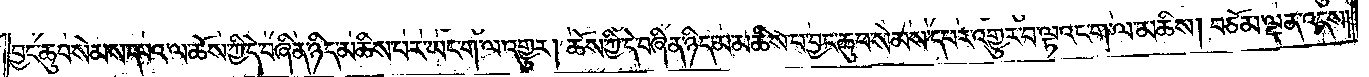བྱང་ཆུབ་སེམས་དཔའ་ལ་ཆོས་ཀྱི་དེ་བཞིན་ཉིད་མཆིས་པར་ཡང་ག་ལ་འགྱུར། ཆོས་ཀྱི་དེ་བཞིན་ཉིད་མ་མཆིས་པ་བྱང་ཆུབ་སེམས་དཔར་འགྱུར་བ་ལྟའང་ག་ལ་མཆིས། བཅོམ་ལྡན་འདས།
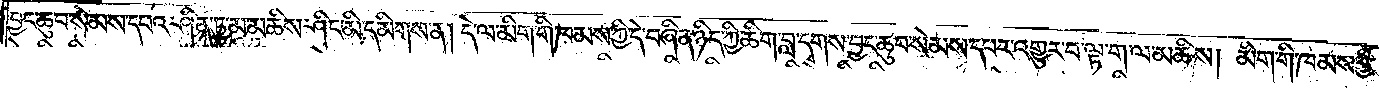བྱང་ཆུབ་སེམས་དཔའ་ཤིན་ཏུ་མ་མཆིས་ཤིང་མི་དམིགས་ན། དེ་ལ་མིག་གི་ཁམས་ཀྱི་དེ་བཞིན་ཉིད་ཀྱི་ཚིག་བླ་དྭགས་བྱང་ཆུབ་སེམས་དཔར་འགྱུར་བ་ལྟ་ག་ལ་མཆིས། མིག་གི་ཁམས་ཀྱི་
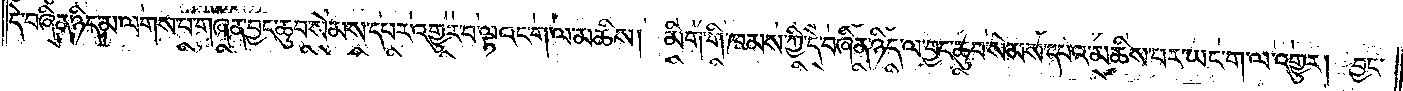དེ་བཞིན་ཉིད་མ་ལགས་པ་གཞན་བྱང་ཆུབ་སེམས་དཔར་འགྱུར་བ་ལྟའང་ག་ལ་མཆིས། མིག་གི་ཁམས་ཀྱི་དེ་བཞིན་ཉིད་ལ་བྱང་ཆུབ་སེམས་དཔའ་མཆིས་པར་ཡང་ག་ལ་འགྱུར། བྱང་
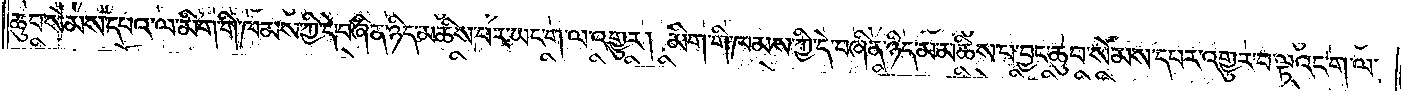ཆུབ་སེམས་དཔའ་ལ་མིག་གི་ཁམས་ཀྱི་དེ་བཞིན་ཉིད་མཆིས་པར་ཡང་ག་ལ་འགྱུར། མིག་གི་ཁམས་ཀྱི་དེ་བཞིན་ཉིད་མ་མཆིས་པ་བྱང་ཆུབ་སེམས་དཔར་འགྱུར་བ་ལྟའང་ག་ལ་
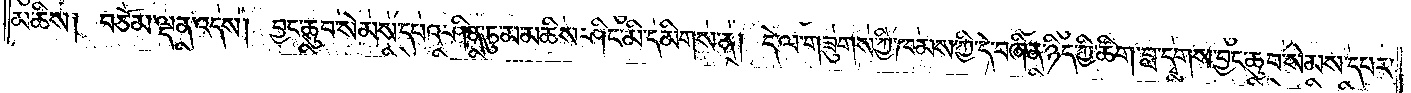མཆིས༑ བཅོམ་ལྡན་འདས། བྱང་ཆུབ་སེམས་དཔའ་ཤིན་ཏུ་མ་མཆིས་ཤིང་མི་དམིགས་ན། དེ་ལ་གཟུགས་ཀྱི་ཁམས་ཀྱི་དེ་བཞིན་ཉིད་ཀྱི་ཚིག་བླ་དྭགས་བྱང་ཆུབ་སེམས་དཔར་
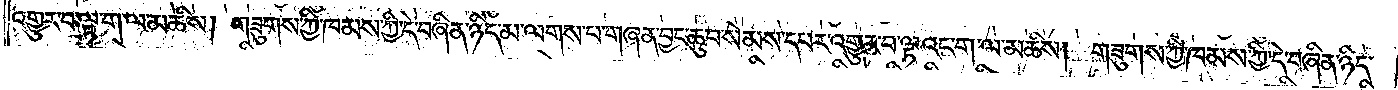འགྱུར་བ་ལྟ་ག་ལ་མཆིས། གཟུགས་ཀྱི་ཁམས་ཀྱི་དེ་བཞིན་ཉིད་མ་ལགས་པ་གཞན་བྱང་ཆུབ་སེམས་དཔར་འགྱུར་བ་ལྟའང་ག་ལ་མཆིས། གཟུགས་ཀྱི་ཁམས་ཀྱི་དེ་བཞིན་ཉིད་
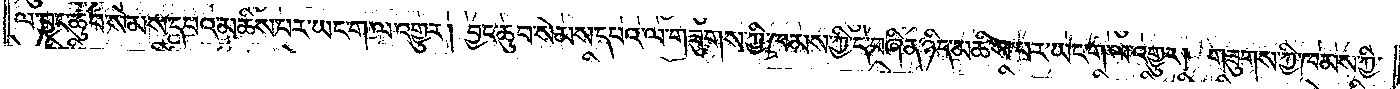ལ་བྱང་ཆུབ་སེམས་དཔའ་མཆིས་པར་ཡང་ག་ལ་འགྱུར། བྱང་ཆུབ་སེམས་དཔའ་ལ་གཟུགས་ཀྱི་ཁམས་ཀྱི་དེ་བཞིན་ཉིད་མཆིས་པར་ཡང་ག་ལ་འགྱུར། གཟུགས་ཀྱི་ཁམས་ཀྱི་
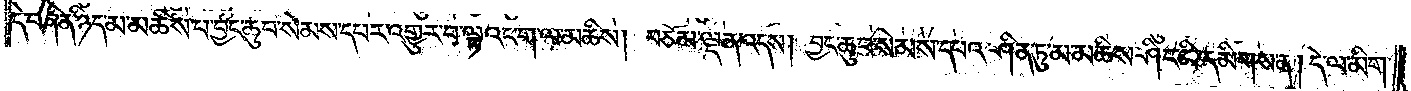དེ་བཞིན་ཉིད་མ་མཆིས་པ་བྱང་ཆུབ་སེམས་དཔར་འགྱུར་བ་ལྟའང་ག་ལ་མཆིས། བཅོམ་ལྡན་འདས། བྱང་ཆུབ་སེམས་དཔའ་ཤིན་ཏུ་མ་མཆིས་ཤིང་མི་དམིགས་ན། དེ་ལ་མིག་
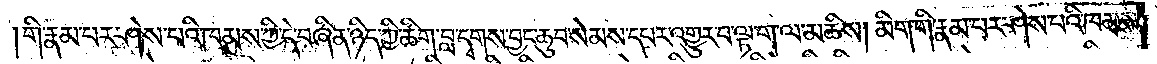གི་རྣམ་པར་ཤེས་པའི་ཁམས་ཀྱི་དེ་བཞིན་ཉིད་ཀྱི་ཚིག་བླ་དྭགས་བྱང་ཆུབ་སེམས་དཔར་འགྱུར་བ་ལྟ་ག་ལ་མཆིས། མིག་གི་རྣམ་པར་ཤེས་པའི་ཁམས་
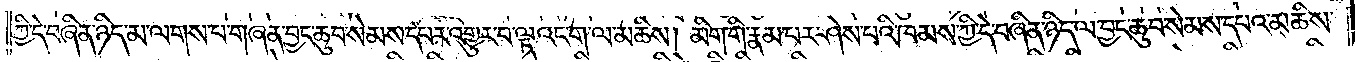ཀྱི་དེ་བཞིན་ཉིད་མ་ལགས་པ་གཞན་བྱང་ཆུབ་སེམས་དཔར་འགྱུར་བ་ལྟའང་ག་ལ་མཆིས། མིག་གི་རྣམ་པར་ཤེས་པའི་ཁམས་ཀྱི་དེ་བཞིན་ཉིད་ལ་བྱང་ཆུབ་སེམས་དཔའ་མཆིས་
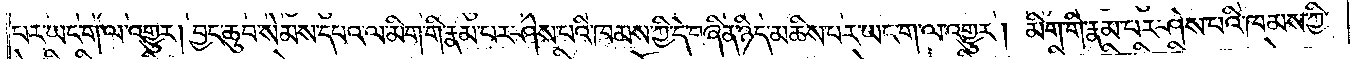པར་ཡང་ག་ལ་འགྱུར། བྱང་ཆུབ་སེམས་དཔའ་ལ་མིག་གི་རྣམ་པར་ཤེས་པའི་ཁམས་ཀྱི་དེ་བཞིན་ཉིད་མཆིས་པར་ཡང་ག་ལ་འགྱུར། མིག་གི་རྣམ་པར་ཤེས་པའི་ཁམས་ཀྱི་
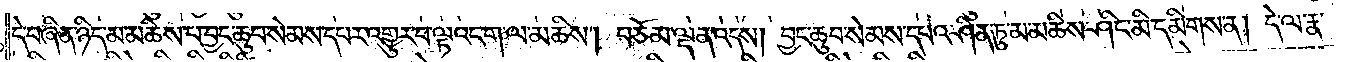དེ་བཞིན་ཉིད་མ་མཆིས་པ་བྱང་ཆུབ་སེམས་དཔར་འགྱུར་བ་ལྟའང་ག་ལ་མཆིས། བཅོམ་ལྡན་འདས། བྱང་ཆུབ་སེམས་དཔའ་ཤིན་ཏུ་མ་མཆིས་ཤིང་མི་དམིགས་ན། དེ་ལ་རྣ་
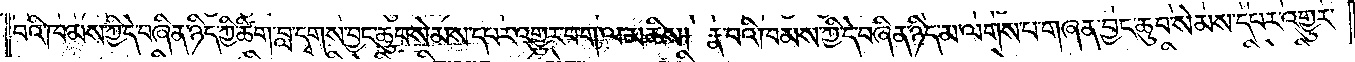བའི་ཁམས་ཀྱི་དེ་བཞིན་ཉིད་ཀྱི་ཚིག་བླ་དྭགས་བྱང་ཆུབ་སེམས་དཔར་འགྱུར་བ་ག་ལ་མཆིས། རྣ་བའི་ཁམས་ཀྱི་དེ་བཞིན་ཉིད་མ་ལགས་པ་གཞན་བྱང་ཆུབ་སེམས་དཔར་འགྱུར་
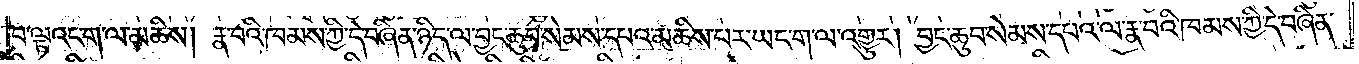བ་ལྟའང་ག་ལ་མཆིས། རྣ་བའི་ཁམས་ཀྱི་དེ་བཞིན་ཉིད་ལ་བྱང་ཆུབ་སེམས་དཔའ་མཆིས་པར་ཡང་ག་ལ་འགྱུར། བྱང་ཆུབ་སེམས་དཔའ་ལ་རྣ་བའི་ཁམས་ཀྱི་དེ་བཞིན་
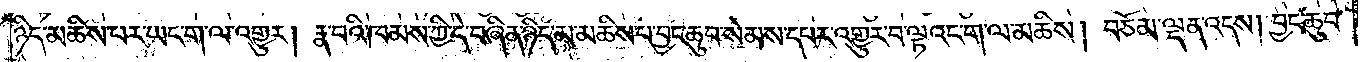ཉིད་མཆིས་པར་ཡང་ག་ལ་འགྱུར། རྣ་བའི་ཁམས་ཀྱི་དེ་བཞིན་ཉིད་མ་མཆིས་པ་བྱང་ཆུབ་སེམས་དཔར་འགྱུར་བ་ལྟའང་ག་ལ་མཆིས། བཅོམ་ལྡན་འདས། བྱང་ཆུབ་
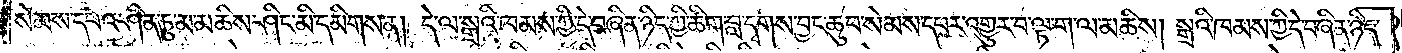སེམས་དཔའ་ཤིན་ཏུ་མ་མཆིས་ཤིང་མི་དམིགས་ན། དེ་ལ་སྒྲའི་ཁམས་ཀྱི་དེ་བཞིན་ཉིད་ཀྱི་ཚིག་བླ་དྭགས་བྱང་ཆུབ་སེམས་དཔར་འགྱུར་བ་ལྟ་ག་ལ་མཆིས། སྒྲའི་ཁམས་ཀྱི་དེ་བཞིན་ཉིད་
